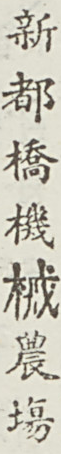新都橋機械農場
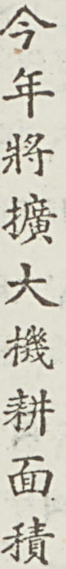今年將擴大機耕面積
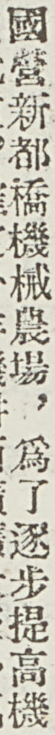國營新都橋機械農場，爲了逐步提高機
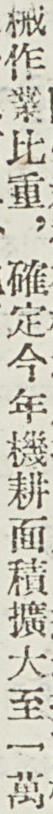械作業比重，確定今年機耕面積擴大至一萬
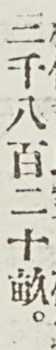三千八百二十畝。
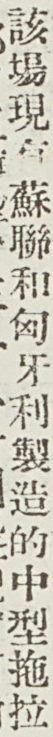該場現有蘇聯和匈牙利製造的中型拖拉
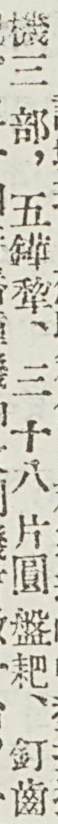機三部，五鏵犂、三十八片圓盤耙、釘齒
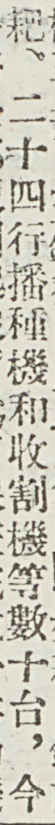耙、二十四行播種機和收割機等數十台，今
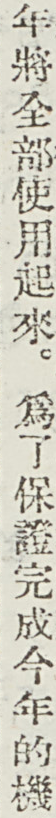年將全部使用起來。爲了保證完成今年的機
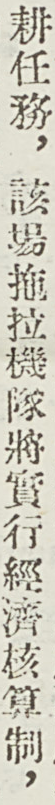耕任務，該場拖拉機隊將實行經濟核算制，
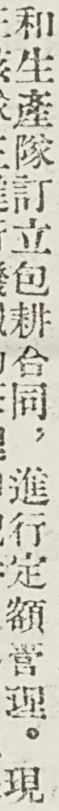和生產隊訂立包耕合同，進行定額營理。現
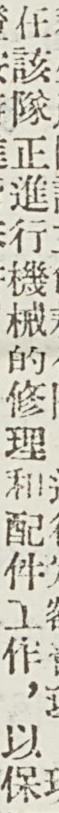在該隊正進行機械的修理和配件工作，以保
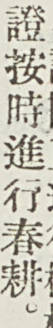證按時進行春耕。
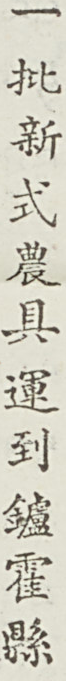一批新式農具運到爐霍縣
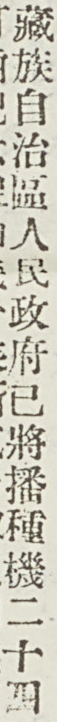藏族自治區人民政府已將播種機二十四
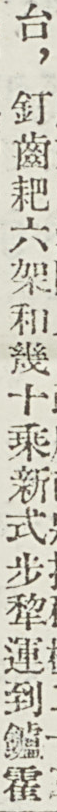台，釘齒耙六架和幾十乘新式步犂運到爐霍
